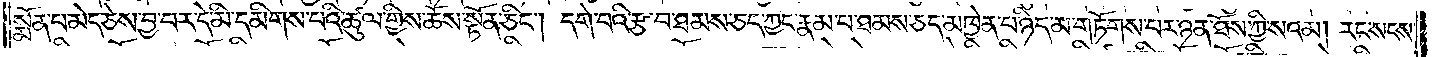སྨོན་པ་མེད་ཅེས་བྱ་བར་དེ་མི་དམིགས་པའི་ཚུལ་གྱིས་ཆོས་སྟོན་ཅིང༌། དགེ་བའི་རྩ་བ་ཐམས་ཅད་ཀྱང་རྣམ་པ་ཐམས་ཅད་མཁྱེན་པ་ཉིད་མ་གཏོགས་པར་ཉན་ཐོས་ཀྱི་སའམ། རང་སངས་
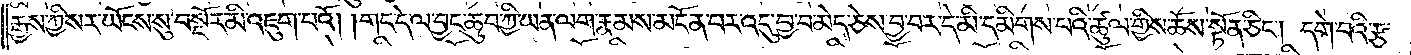རྒྱས་ཀྱི་སར་ཡོངས་སུ་བསྔོར་མི་འཇུག་པའོ། །གང་དེ་ལ་བྱང་ཆུབ་ཀྱི་ཡན་ལག་རྣམས་མངོན་པ་འདུ་བྱ་བ་མེད་ཅེས་བྱ་བར་དེ་མི་དམིགས་པའི་ཚུལ་གྱིས་ཆོས་སྟོན་ཅིང༌། དགེ་བའི་རྩ་
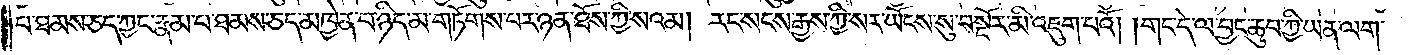པ་ཐམས་ཅད་ཀྱང་རྣམ་པ་ཐམས་ཅད་མཁྱེན་པ་ཉིད་མ་གཏོགས་པར་ཉན་ཐོས་ཀྱི་སའམ། རང་སངས་རྒྱས་ཀྱི་སར་ཡོངས་སུ་བསྔོར་མི་འཇུག་པའོ། །གང་དེ་ལ་བྱང་ཆུབ་ཀྱི་ཡན་ལག་
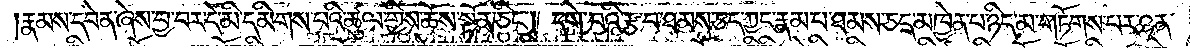རྣམས་དབེན་ཞེས་བྱ་བར་དེ་མི་དམིགས་པའི་ཚུལ་གྱིས་ཆོས་སྟོན་ཅིང༌། དགེ་བའི་རྩ་བ་ཐམས་ཅད་ཀྱང་རྣམ་པ་ཐམས་ཅད་མཁྱེན་པ་ཉིད་མ་གཏོགས་པར་ཉན་
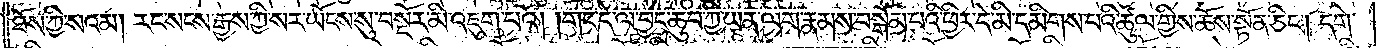ཐོས་ཀྱི་སའམ། རང་སངས་རྒྱས་ཀྱི་སར་ཡོངས་སུ་བསྔོར་མི་འཇུག་པའོ། །གང་དེ་ལ་བྱང་ཆུབ་ཀྱི་ཡན་ལག་རྣམས་བསྒོམ་པའི་ཕྱིར་དེ་མི་དམིགས་པའི་ཚུལ་གྱིས་ཆོས་སྟོན་ཅིང༌། དགེ་
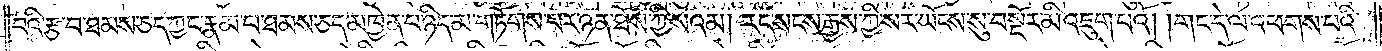བའི་རྩ་བ་ཐམས་ཅད་ཀྱང་རྣམ་པ་ཐམས་ཅད་མཁྱེན་པ་ཉིད་མ་གཏོགས་པར་ཉན་ཐོས་ཀྱི་སའམ། རང་སངས་རྒྱས་ཀྱི་སར་ཡོངས་སུ་བསྔོར་མི་འཇུག་པའོ། །གང་དེ་ལ་འཕགས་པའི་
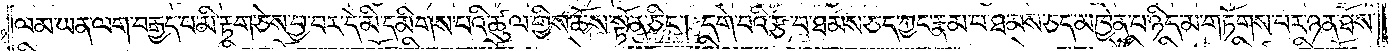ལམ་ཡན་ལག་བརྒྱད་པ་མི་རྟག་ཅེས་བྱ་བར་དེ་མི་དམིགས་པའི་ཚུལ་གྱིས་ཆོས་སྟོན་ཅིང༌། དགེ་བའི་རྩ་བ་ཐམས་ཅད་ཀྱང་རྣམ་པ་ཐམས་ཅད་མཁྱེན་པ་ཉིད་མ་གཏོགས་པར་ཉན་ཐོས་
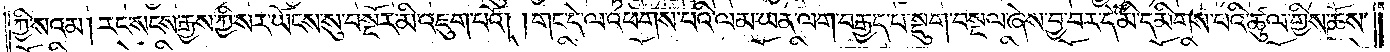ཀྱི་སའམ། རང་སངས་རྒྱས་ཀྱི་སར་ཡོངས་སུ་བསྔོར་མི་འཇུག་པའོ། །གང་དེ་ལ་འཕགས་པའི་ལམ་ཡན་ལག་བརྒྱད་པ་སྡུག་བསྔལ་ཞེས་བྱ་བར་དེ་མི་དམིགས་པའི་ཚུལ་གྱིས་ཆོས་
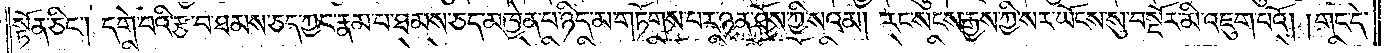སྟོན་ཅིང༌། དགེ་བའི་རྩ་བ་ཐམས་ཅད་ཀྱང་རྣམ་པ་ཐམས་ཅད་མཁྱེན་པ་ཉིད་མ་གཏོགས་པར་ཉན་ཐོས་ཀྱི་སའམ། རང་སངས་རྒྱས་ཀྱི་སར་ཡོངས་སུ་བསྔོར་མི་འཇུག་པའོ། །གང་དེ་
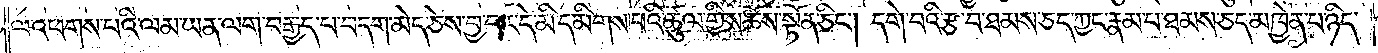ལ་འཕགས་པའི་ལམ་ཡན་ལག་བརྒྱད་པ་བདག་མེད་ཅེས་བྱ་བར་དེ་མི་དམིགས་པའི་ཚུལ་གྱིས་ཆོས་སྟོན་ཅིང༌། དགེ་བའི་རྩ་བ་ཐམས་ཅད་ཀྱང་རྣམ་པ་ཐམས་ཅད་མཁྱེན་པ་ཉིད་
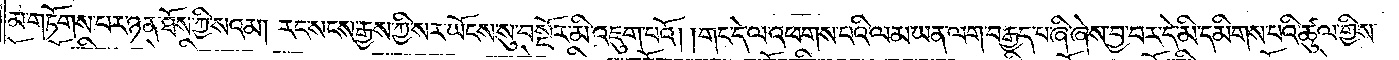མ་གཏོགས་པར་ཉན་ཐོས་ཀྱི་སའམ། རང་སངས་རྒྱས་ཀྱི་སར་ཡོངས་སུ་བསྔོར་མི་འཇུག་པའོ། །གང་དེ་ལ་འཕགས་པའི་ལམ་ཡན་ལག་བརྒྱད་པ་ཞི་ཞེས་བྱ་བར་དེ་མི་དམིགས་པའི་ཚུལ་གྱིས་
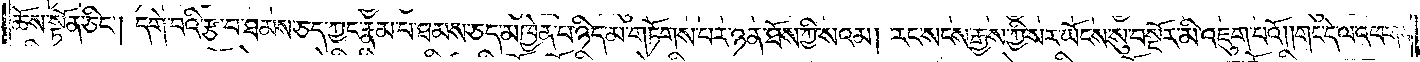ཆོས་སྟོན་ཅིང༌། དགེ་བའི་རྩ་བ་ཐམས་ཅད་ཀྱང་རྣམ་པ་ཐམས་ཅད་མཁྱེན་པ་ཉིད་མ་གཏོགས་པར་ཉན་ཐོས་ཀྱི་སའམ། རང་སངས་རྒྱས་ཀྱི་སར་ཡོངས་སུ་བསྔོར་མི་འཇུག་པའོ། །གང་དེ་ལ་འཕགས་
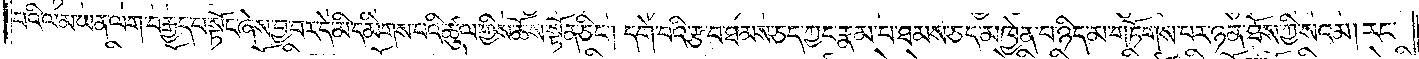པའི་ལམ་ཡན་ལག་བརྒྱད་པ་སྟོང་ཞེས་བྱ་བར་དེ་མི་དམིགས་པའི་ཚུལ་གྱིས་ཆོས་སྟོན་ཅིང༌། དགེ་བའི་རྩ་བ་ཐམས་ཅད་ཀྱང་རྣམ་པ་ཐམས་ཅད་མཁྱེན་པ་ཉིད་མ་གཏོགས་པར་ཉན་ཐོས་ཀྱི་སའམ། རང་
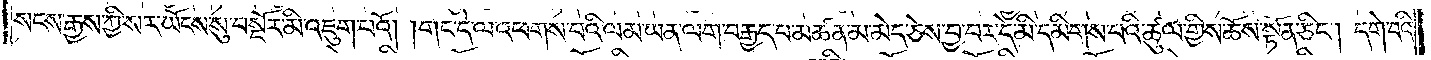སངས་རྒྱས་ཀྱི་སར་ཡོངས་སུ་བསྔོར་མི་འཇུག་པའོ། །གང་དེ་ལ་འཕགས་པའི་ལམ་ཡན་ལག་བརྒྱད་པ་མཚན་མ་མེད་ཅེས་བྱ་བར་དེ་མི་དམིགས་པའི་ཚུལ་གྱིས་ཆོས་སྟོན་ཅིང༌། དགེ་བའི་
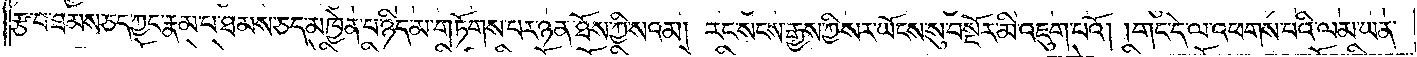རྩ་བ་ཐམས་ཅད་ཀྱང་རྣམ་པ་ཐམས་ཅད་མཁྱེན་པ་ཉིད་མ་གཏོགས་པར་ཉན་ཐོས་ཀྱི་སའམ། རང་སངས་རྒྱས་ཀྱི་སར་ཡོངས་སུ་བསྔོར་མི་འཇུག་པའོ། །གང་དེ་ལ་འཕགས་པའི་ལམ་ཡན་
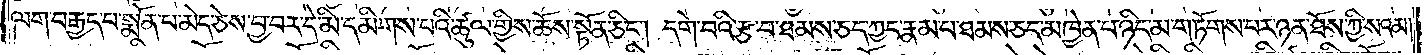ལག་བརྒྱད་པ་སྨོན་པ་མེད་ཅེས་བྱ་བར་དེ་མི་དམིགས་པའི་ཚུལ་གྱིས་ཆོས་སྟོན་ཅིང༌། དགེ་བའི་རྩ་བ་ཐམས་ཅད་ཀྱང་རྣམ་པ་ཐམས་ཅད་མཁྱེན་པ་ཉིད་མ་གཏོགས་པར་ཉན་ཐོས་ཀྱི་སའམ།
